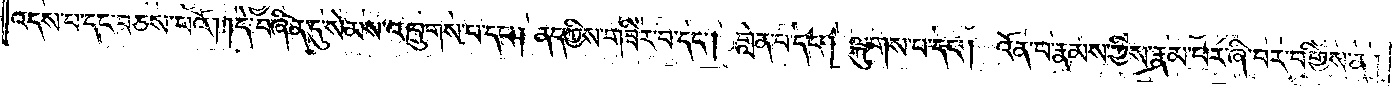འདས་པ་དང་བཅས་པའོ། །དེ་བཞིན་དུ་སེམས་འཁྲུགས་པ་དང༌། ནད་ཀྱིས་གཟིར་བ་དང༌། གླེན་པ་དང༌། ལྐུགས་པ་དང༌། འོན་པ་རྣམས་ཀྱིས་རྣམ་པར་ཞི་བར་བགྱིས་ན།
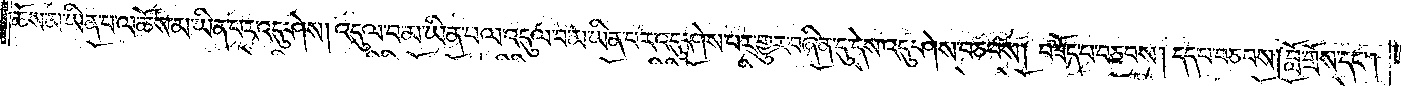ཆོས་མ་ཡིན་པ་ལ་ཆོས་མ་ཡིན་པར་འདུ་ཤེས། འདུལ་བ་མ་ཡིན་པ་ལ་འདུལ་བ་མ་ཡིན་པར་འདུ་ཤེས་པར་གྱུར་བཞིན་དུ་དེས་འདུ་ཤེས་བཅབས། བཟོད་པ་བཅབས། དད་པ་བཅབས། བློ་གྲོས་དང༌།
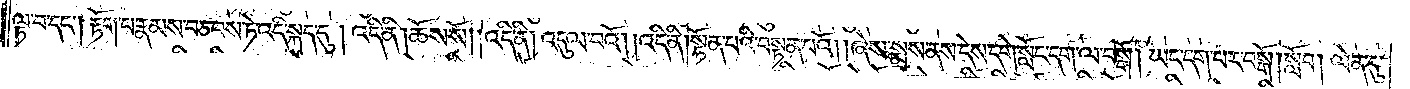ལྟ་བ་དང༌། རྟོག་པ་རྣམས་བཅབས་ཏེ་འདི་སྐད་དུ། འདི་ནི། ཆོས་སོ། །འདི་ནི། འདུལ་བའོ། །འདི་ནི། སྟོན་པའི་བསྟན་པའོ། །ཞེས་སྨྲས་ནས་དེས་དགེ་སློང་དག་ལ་བསྒོ། ཡང་དག་པར་བསྒོ། སློབ། ལེན་དུ་
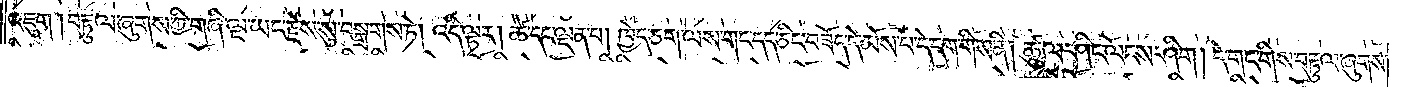འཇུག །བརྟུལ་ཞུགས་ཀྱི་གཞི་ལྔ་ཡང་རྗེས་སུ་བསྒྲགས་ཏེ། འདི་ལྟར། ཚེ་དང་ལྡན་པ། ཁྱེད་ཅག་ལས་གང་དད་ཅིང་བཟོད་དེ་མོས་པ་དེ་དག་གིས་ནི། ཚུལ་ཤིང་ལོངས་ཤིག །དེ་གང་གིས་བརྟུལ་ཞུགས་
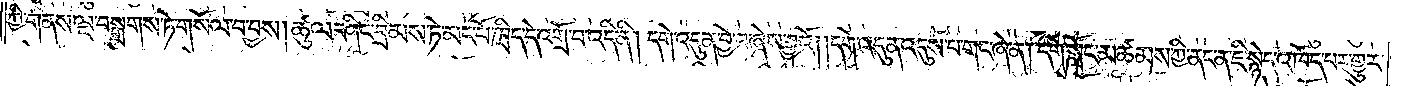ཀྱི་གནས་ལྔ་བསྒྲགས་ཏེ་གསོལ་བ་བྱས། ཚུལ་ཤིང་བྲིམས་ཏེ་མང་པོ་ཁྲིད་དེ་འགྲོ་བ་འདི་ནི། དགེ་འདུན་བྱེ་བ་ཞེས་བྱའོ། །དགེ་འདུན་འདུས་པ་གང་ཞེ་ན། དགེ་སློང་མཚམས་ཀྱི་ནང་ན་ཇི་སྙེད་འཁོད་པར་གྱུར་
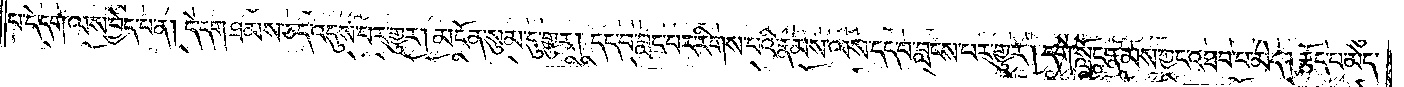པ་དེ་དག་ལས་བྱེད་པ་ན། དེ་དག་ཐམས་ཅད་འདུས་པར་གྱུར། མངོན་སུམ་དུ་གྱུར། དད་པ་བླང་བར་རིགས་པའི་རྣམས་ལས་དད་པ་བླངས་པར་གྱུར། དགེ་སློང་རྣམས་ཀྱང་འཐབ་པ་མེད། རྩོད་པ་མེད་
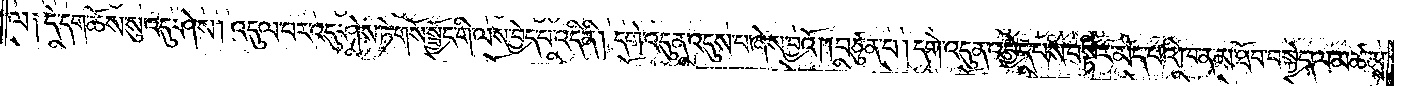ལ༑ དེ་དག་ཆོས་སུ་འདུ་ཤེས། འདུལ་བར་འདུ་ཤེས་ཏེ་གསོ་སྦྱོང་གི་ལས་བྱེད་པ་འདི་ནི། དགེ་འདུན་འདུས་པ་ཞེས་བྱའོ། །བཙུན་པ། དགེ་འདུན་འབྱེད་པས་བསྟིར་མེད་པའི་ཁ་ན་མ་ཐོ་བ་བསྐྱེད་ལ་མཚམས་
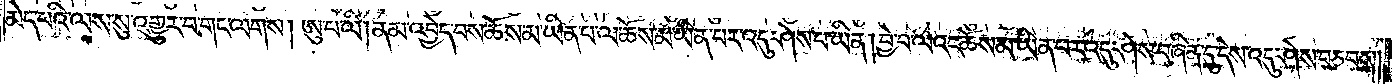མེད་པའི་ལས་སུ་འགྱུར་བ་གང་ལགས། ཨུ་པ་ལི། ནམ་འབྱེད་པས་ཆོས་མ་ཡིན་པ་ལ་ཆོས་མ་ཡིན་པར་འདུ་ཤེས་པ་ཡིན། བྱེ་བ་ལའང་ཆོས་མ་ཡིན་པར་འདུ་ཤེས་བཞིན་དུ་དེས་འདུ་ཤེས་བཅབས།
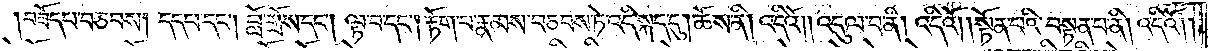བཟོད་པ་བཅབས། དད་པ་དང༌། བློ་གྲོས་དང༌། ལྟ་བ་དང༌། རྟོག་པ་རྣམས་བཅབས་ཏེ་འདི་སྐད་དུ། ཆོས་ནི། འདིའོ། །འདུལ་བ་ནི། འདིའོ། །སྟོན་པའི་བསྟན་པ་ནི། འདིའོ༎
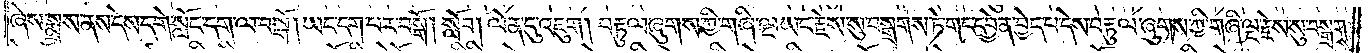ཞེས་སྨྲས་ནས་དེས་དགེ་སློང་དག་ལ་བསྒོ། ཡང་དག་པར་བསྒོ། སློབ། ལེན་དུ་འཇུག། བརྟུལ་ཞུགས་ཀྱི་གཞི་ལྔ་ཡང་རྗེས་སུ་བསྒྲགས་ཏེ་གང་དབྱེན་བྱེད་པ་དེས་བརྟུལ་ཞུགས་ཀྱི་གཞི་ལྔ་རྗེས་སུ་བསྒྲགས་
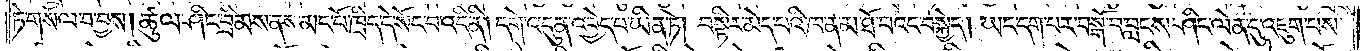ཏེ་གསོལ་བ་བྱས། ཚུལ་ཤིང་བྲིམས་ནས་མང་པོ་ཁྲིད་དེ་སོང་བ་འདི་ནི། དགེ་འདུན་འབྱེད་པ་ཡིན་ཏེ། བསྟིར་མེད་པའི་ཁ་ན་མ་ཐོ་བའང་བསྐྱེད། ཡང་དག་པར་བསྒོ་བ་བླངས་ཤིང་ལེན་དུ་འཇུག་པས་
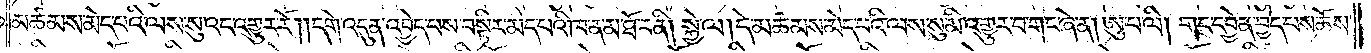མཚམས་མེད་པའི་ལས་སུ་འང་འགྱུར་རོ། །དགེ་འདུན་འབྱེད་པས་བསྟིར་མེད་པའི་ཁ་ན་མ་ཐོ་བ་ནི། སྐྱེ་ལ། དེ་མཚམས་མེད་པའི་ལས་སུ་མི་འགྱུར་བ་གང་ཞེ་ན། ཨུ་པ་ལི། གང་དབྱེན་བྱེད་པས་ཆོས་
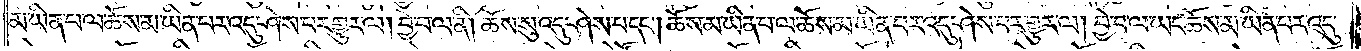མ་ཡིན་པ་ལ་ཆོས་མ་ཡིན་པར་འདུ་ཤེས་པར་གྱུར་ལ། བྱེ་བ་ལ་ནི། ཆོས་སུ་འདུ་ཤེས་པ་དང༌། ཆོས་མ་ཡིན་པ་ལ་ཆོས་མ་ཡིན་པར་འདུ་ཤེས་པར་གྱུར་ལ། བྱེ་བ་ལ་ཡང་ཆོས་མ་ཡིན་པར་འདུ་
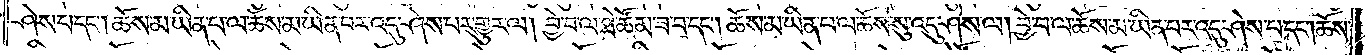ཤེས་པ་དང༌། ཆོས་མ་ཡིན་པ་ལ་ཆོས་མ་ཡིན་པར་འདུ་ཤེས་པར་གྱུར་ལ། བྱེ་བ་ལ་ཐེ་ཚོམ་ཟ་བ་དང༌། ཆོས་མ་ཡིན་པ་ལ་ཆོས་སུ་འདུ་ཤེས་ལ། བྱེ་བ་ལ་ཆོས་མ་ཡིན་པར་འདུ་ཤེས་པ་དང༌། ཆོས་
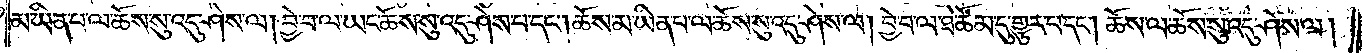མ་ཡིན་པ་ལ་ཆོས་སུ་འདུ་ཤེས་ལ། བྱེ་བ་ལ་ཡང་ཆོས་སུ་འདུ་ཤེས་པ་དང༌། ཆོས་མ་ཡིན་པ་ལ་ཆོས་སུ་འདུ་ཤེས་ལ། བྱེ་བ་ལ་ཐེ་ཚོམ་དུ་གྱུར་པ་དང༌། ཆོས་ལ་ཆོས་སུ་འདུ་ཤེས་ལ།
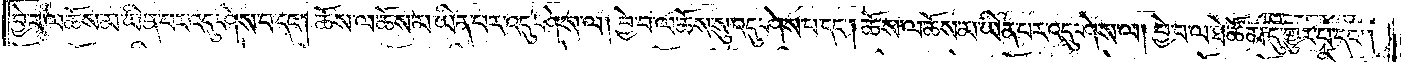བྱེ་བ་ལ་ཆོས་མ་ཡིན་པར་འདུ་ཤེས་པ་དང༌། ཆོས་ལ་ཆོས་མ་ཡིན་པར་འདུ་ཤེས་ལ། བྱེ་བ་ལ་ཆོས་སུ་འདུ་ཤེས་པ་དང༌། ཆོས་ལ་ཆོས་མ་ཡིན་པར་འདུ་ཤེས་ལ། བྱེ་བ་ལ་ཐེ་ཚོམ་དུ་གྱུར་པ་དང༌།
